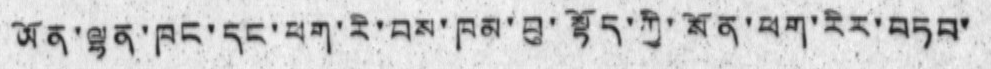ཡོན་ལྷན་ཁང་དང་ཕག་རི་བས་ཁམ་བུ་སྟོད་ཀྱི་སོན་ཕག་རིར་བཏབ་
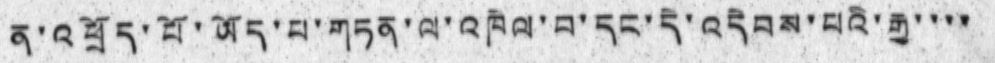ན་འཕྲོད་པོ་ཡོད་པ་གཏན་ལ་འཁེལ་བ་དང་དེ་འདེབས་པའི་རྒྱ་་་་
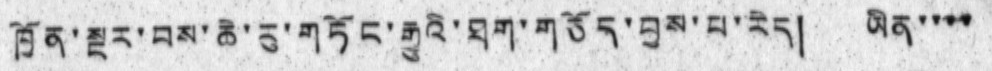ཁྱོན་སྔར་བས་ཆེ་རུ་གཏོང་རྒྱུའི་ཐག་གཅོད་བྱས་པ་རེད། ཡིན་་་་་
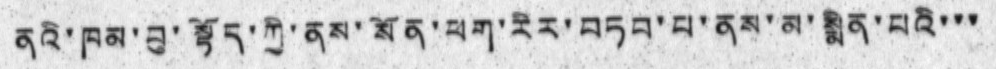ནའི་ཁམ་བུ་སྟོད་ཀྱི་ནས་སོན་ཕག་རིར་བཏབ་པ་ནས་མ་སྨིན་པའི་་་
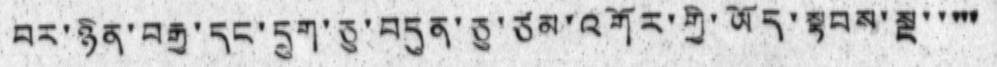བར་ཉིན་བརྒྱ་དང་དྲུག་ཅུ་བདུན་ཅུ་ཙམ་འགོར་གྱི་ཡོད་སྟབས་སྡ་་་་་
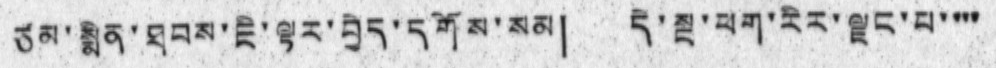ཙམ་སྨིན་ཐབས་ཇི་ལྟར་བྱེད་དགོས་སམ། དེ་སྔ་ཕག་རིར་ལྗང་པ་་་་
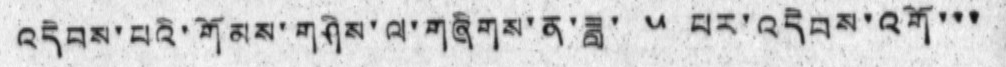འདེབས་པའི་གོམས་གཤིས་ལ་གཞིགས་ན་ཟླ་ ༥ པར་འདེབས་འགོ་་་
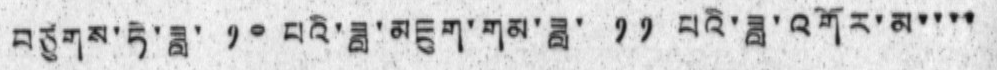བཙུགས་ཏེ་ཟླ་ ༡༠ པའི་ཟླ་མཇུག་གམ་ཟླ་ ༡༡ པའི་ཟླ་འགོར་མ་་་་
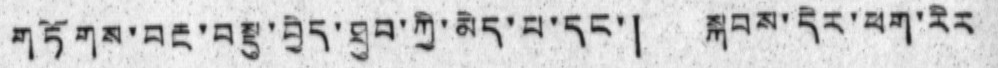གཏོགས་བརྔ་བསྡུ་བྱེད་ཐུབ་ཀྱི་མེད་པ་དང་། སྐབས་དེར་ཕག་རིར
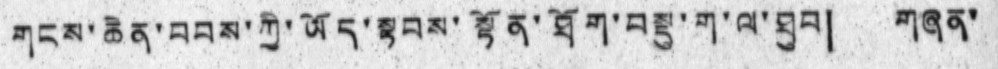གངས་ཆེན་བབས་ཀྱི་ཡོད་སྟབས་སྟོན་ཐོག་བསྡུ་ག་ལ་ཐུབ། གཞན་
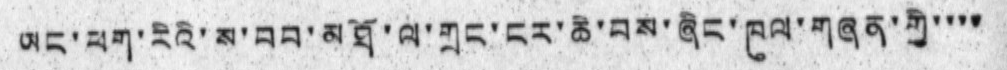ཡང་ཕག་རིའི་ས་བབ་མཐོ་ལ་གྲང་ངར་ཆེ་བས་ཞིང་ཁུལ་གཞན་གྱི་་་་
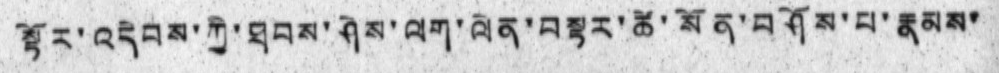སྟོར་འདེབས་ཀྱི་ཐབས་ཤེས་ལག་ལེན་བསྟར་ཚེ་སོན་བཤོས་པ་རྣམས་
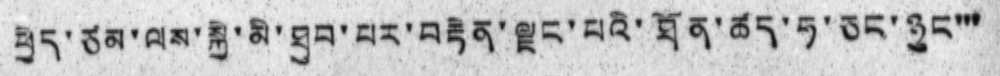ཕྱེད་ཙམ་ལས་སྐྱེ་མི་ཐུབ་པར་བརྟེན་ལྗང་པའི་ཐོན་ཚད་ཧ་ཅང་ཉུང་་་
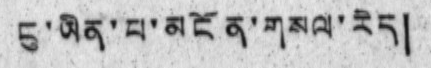ངུ་ཡིན་པ་མངོན་གསལ་རེད།
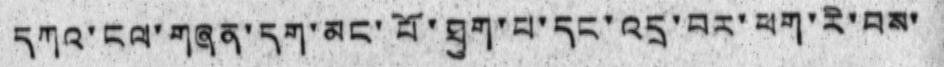དཀའ་ངལ་གཞན་དག་མང་པོ་ཐུག་པ་དང་འདྲ་བར་ཕག་རི་བས་
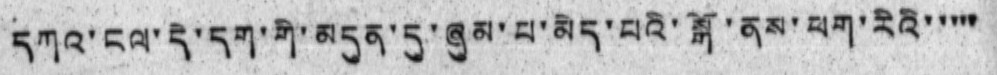དཀའ་ངལ་དེ་དག་གི་མདུན་དུ་ཞུམ་པ་མེད་པའི་སྒོ་ནས་ཕག་རིའི་་་་་
